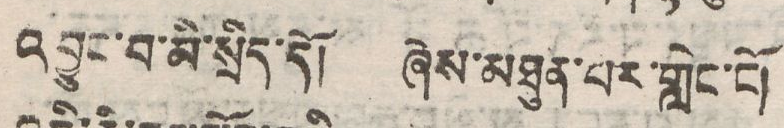འབྱུང་བ་མི་སྲིད་དོ། ཞེས་མཐུན་པར་གླེང་ངོ།
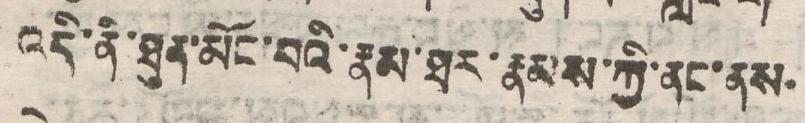འདི་ནི་ཐུན་མོང་བའི་རྣམ་ཐར་རྣམས་ཀྱི་ནང་ནས་
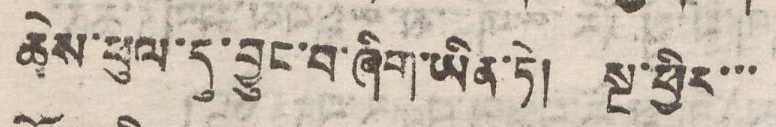ཆེས་ཕུལ་དུ་བྱུང་བ་ཞིག་ཡིན་ཏེ། སྔ་ཕྱིར་་
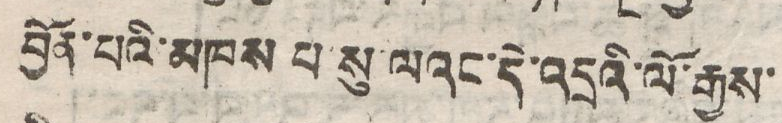བྱོན་པའི་མཁས པ་སུ་ལའང་དེ་འདྲའི་ལོ་རྒྱས་
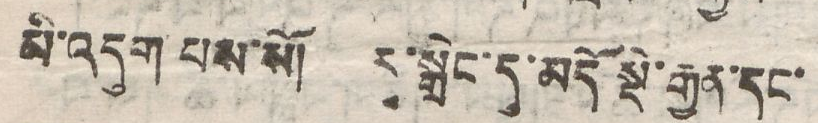མི་འདུག པས་སོ། རྭ་སྒྲེང་དུ་མདོ སྡེ་རྒྱན་དང་
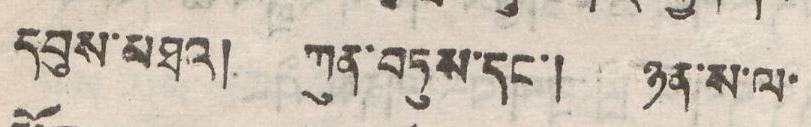དབུས་མཐའ། ཀུན་བཏུས་དང་། ཉན་ས་ལ་
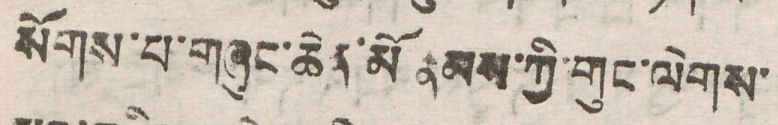སོགས་པ་གཞུང་ཆེན་མོ་རྣམས་ཀྱི་གུང་ལེགས་
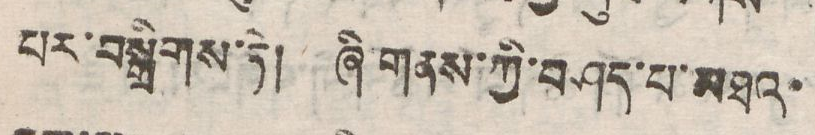པར་བསྒྲིགས་ཏེ། ཞི་གནས་ཀྱི་བཤད་པ་མཐའ་
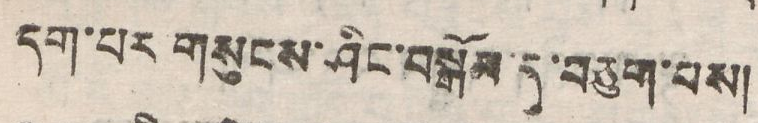དག་པར གསུངས་ཤིང་བསྒོམ་དུ་བཅུག་པས།
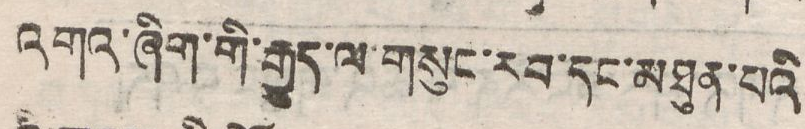འགའ་ཞིག་གི་རྒྱུད་ལ་གསུང་རབ་དང་མཐུན་པའི
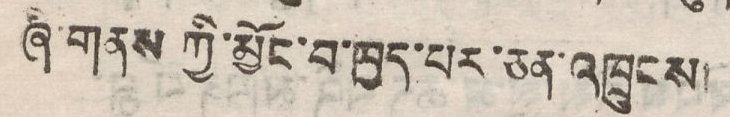ཞི གནས ཀྱི་མྱོང་བ་ཁྱད་པར་ཅན་འཁྲུངས།
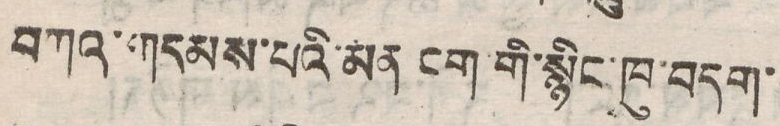བཀའ་གདམས་པའི་མན ངན་གི་སྙིང་ཁུ་བདག་
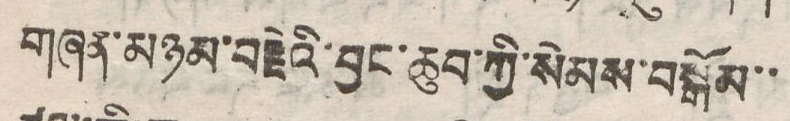གཞན་མཉམ་བརྗེའི་བྱང་ཆུབ་ཀྱི་སེམས་བསྒོམ་་
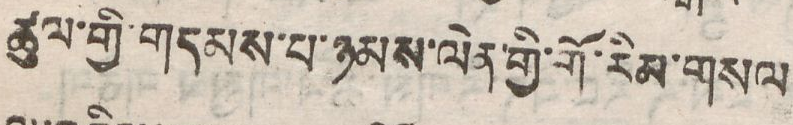ཚུལ་གྱི་གདམས་པ་ཉམས་ལེན་གྱི་གོ་རིམ་གསལ
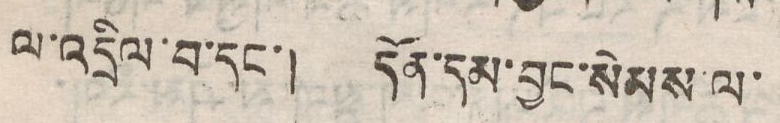འ་འདྲིལ་བ་དང་། དོན་དམ་བྱང་སེམས་ལ་
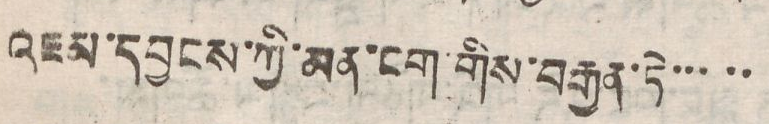འཇམ་དབྱངས་ཀྱི་མན་ངག་གིས་བརྒྱན་ཏེ་་་་་
